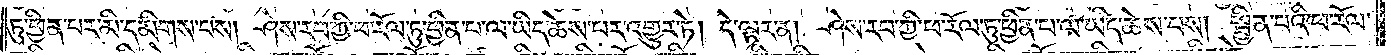ཏུ་ཕྱིན་པར་མི་དམིགས་པས། ཤེས་རབ་ཀྱི་ཕ་རོལ་ཏུ་ཕྱིན་པ་ལ་ཡིད་ཆེས་པར་འགྱུར་ཏེ། དེ་ལྟར་ན། ཤེས་རབ་ཀྱི་ཕ་རོལ་ཏུ་ཕྱིན་པ་ལ་ཡིད་ཆེས་པས། སྦྱིན་པའི་ཕ་རོལ་
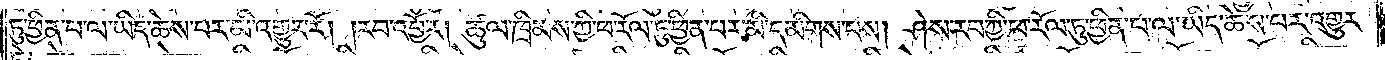ཏུ་ཕྱིན་པ་ལ་ཡིད་ཆེས་པར་མི་འགྱུར་རོ། །རབ་འབྱོར། ཚུལ་ཁྲིམས་ཀྱི་ཕ་རོལ་ཏུ་ཕྱིན་པར་མི་དམིགས་པས། ཤེས་རབ་ཀྱི་ཕ་རོལ་ཏུ་ཕྱིན་པ་ལ་ཡིད་ཆེས་པར་འགྱུར་
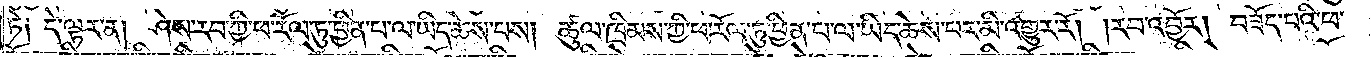ཏེ༑ དེ་ལྟར་ན། ཤེས་རབ་ཀྱི་ཕ་རོལ་ཏུ་ཕྱིན་པ་ལ་ཡིད་ཆེས་པས། ཚུལ་ཁྲིམས་ཀྱི་ཕ་རོལ་ཏུ་ཕྱིན་པ་ལ་ཡིད་ཆེས་པར་མི་འགྱུར་རོ། །རབ་འབྱོར། བཟོད་པའི་ཕ་
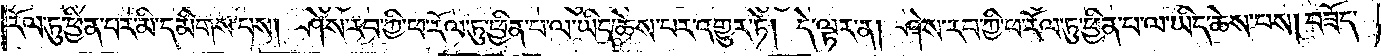རོལ་ཏུ་ཕྱིན་པར་མི་དམིགས་པས། ཤེས་རབ་ཀྱི་ཕ་རོལ་ཏུ་ཕྱིན་པ་ལ་ཡིད་ཆེས་པར་འགྱུར་ཏེ། དེ་ལྟར་ན། ཤེས་རབ་ཀྱི་ཕ་རོལ་ཏུ་ཕྱིན་པ་ལ་ཡིད་ཆེས་པས། བཟོད་
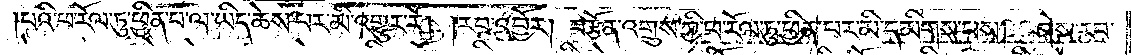པའི་ཕ་རོལ་ཏུ་ཕྱིན་པ་ལ་ཡིད་ཆེས་པར་མི་འགྱུར་རོ། །རབ་འབྱོར། བརྩོན་འགྲུས་ཀྱི་ཕ་རོལ་ཏུ་ཕྱིན་པར་མི་དམིགས་པས། ཤེས་རབ་
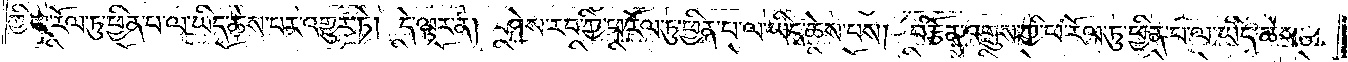ཀྱི་ཕ་རོལ་ཏུ་ཕྱིན་པ་ལ་ཡིད་ཆེས་པར་འགྱུར་ཏེ། དེ་ལྟར་ན། ཤེས་རབ་ཀྱི་ཕ་རོལ་ཏུ་ཕྱིན་པ་ལ་ཡིད་ཆེས་པས། བརྩོན་འགྲུས་ཀྱི་ཕ་རོལ་ཏུ་ཕྱིན་པ་ལ་ཡིད་ཆེས་
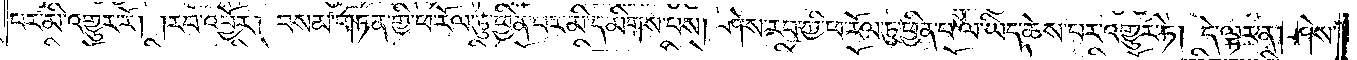པར་མི་འགྱུར་རོ། །རབ་འབྱོར། བསམ་གཏན་གྱི་ཕ་རོལ་ཏུ་ཕྱིན་པར་མི་དམིགས་པས། ཤེས་རབ་ཀྱི་ཕ་རོལ་ཏུ་ཕྱིན་པ་ལ་ཡིད་ཆེས་པར་འགྱུར་ཏེ། དེ་ལྟར་ན། ཤེས་
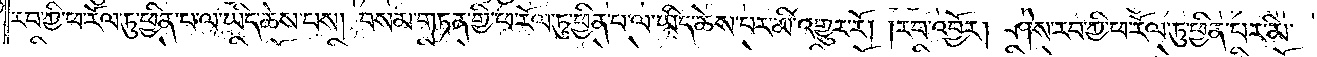རབ་ཀྱི་ཕ་རོལ་ཏུ་ཕྱིན་པ་ལ་ཡིད་ཆེས་པས། བསམ་གཏན་གྱི་ཕ་རོལ་ཏུ་ཕྱིན་པ་ལ་ཡིད་ཆེས་པར་མི་འགྱུར་རོ། །རབ་འབྱོར། ཤེས་རབ་ཀྱི་ཕ་རོལ་ཏུ་ཕྱིན་པར་མི་
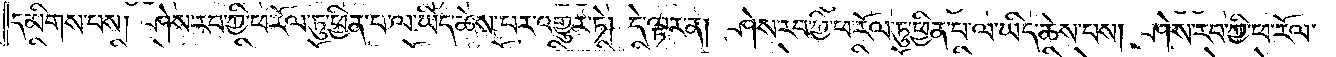དམིགས་པས། ཤེས་རབ་ཀྱི་ཕ་རོལ་ཏུ་ཕྱིན་པ་ལ་ཡིད་ཆེས་པར་འགྱུར་ཏེ། དེ་ལྟར་ན། ཤེས་རབ་ཀྱི་ཕ་རོལ་ཏུ་ཕྱིན་པ་ལ་ཡིད་ཆེས་པས། ཤེས་རབ་ཀྱི་ཕ་རོལ་
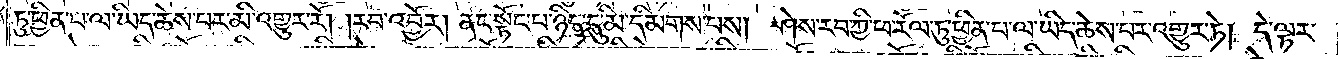ཏུ་ཕྱིན་པ་ལ་ཡིད་ཆེས་པར་མི་འགྱུར་རོ། །རབ་འབྱོར། ནང་སྟོང་པ་ཉིད་དུ་མི་དམིགས་པས། ཤེས་རབ་ཀྱི་ཕ་རོལ་ཏུ་ཕྱིན་པ་ལ་ཡིད་ཆེས་པར་འགྱུར་ཏེ། དེ་ལྟར་
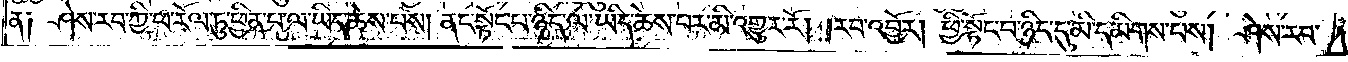ན༑ ཤེས་རབ་ཀྱི་ཕ་རོལ་ཏུ་ཕྱིན་པ་ལ་ཡིད་ཆེས་པས། ནང་སྟོང་པ་ཉིད་ལ་ཡིད་ཆེས་པར་མི་འགྱུར་རོ། །རབ་འབྱོར། ཕྱི་སྟོང་པ་ཉིད་དུ་མི་དམིགས་པས། ཤེས་རབ་
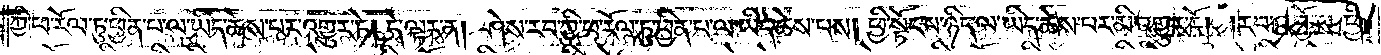ཀྱི་ཕ་རོལ་ཏུ་ཕྱིན་པ་ལ་ཡིད་ཆེས་པར་འགྱུར་ཏེ། དེ་ལྟར་ན། ཤེས་རབ་ཀྱི་ཕ་རོལ་ཏུ་ཕྱིན་པ་ལ་ཡིད་ཆེས་པས། ཕྱི་སྟོང་པ་ཉིད་ལ་ཡིད་ཆེས་པར་མི་འགྱུར་རོ། །རབ་འབྱོར། ཕྱི་
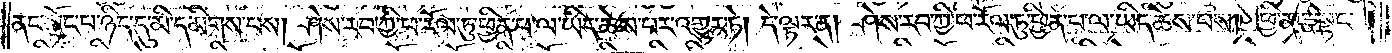ནང་སྟོང་པ་ཉིད་དུ་མི་དམིགས་པས། ཤེས་རབ་ཀྱི་ཕ་རོལ་ཏུ་ཕྱིན་པ་ལ་ཡིད་ཆེས་པར་འགྱུར་ཏེ། དེ་ལྟར་ན། ཤེས་རབ་ཀྱི་ཕ་རོལ་ཏུ་ཕྱིན་པ་ལ་ཡིད་ཆེས་པས། ཕྱི་ནང་སྟོང་
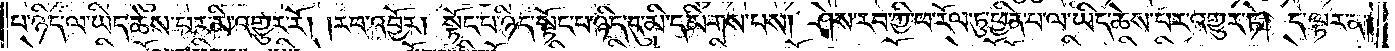པ་ཉིད་ལ་ཡིད་ཆེས་པར་མི་འགྱུར་རོ། །རབ་འབྱོར། སྟོང་པ་ཉིད་སྟོང་པ་ཉིད་དུ་མི་དམིགས་པས། ཤེས་རབ་ཀྱི་ཕ་རོལ་ཏུ་ཕྱིན་པ་ལ་ཡིད་ཆེས་པར་འགྱུར་ཏེ། དེ་ལྟར་ན།
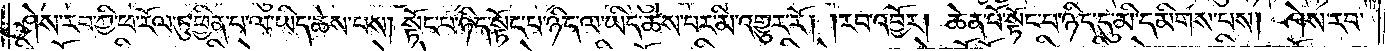ཤེས་རབ་ཀྱི་ཕ་རོལ་ཏུ་ཕྱིན་པ་ལ་ཡིད་ཆེས་པས། སྟོང་པ་ཉིད་སྟོད་པ་ཉིད་ལ་ཡིད་ཆེས་པར་མི་འགྱུར་རོ། །རབ་འབྱོར། ཆེན་པོ་སྟོང་པ་ཉིད་དུ་མི་དམིགས་པས། ཤེས་རབ་
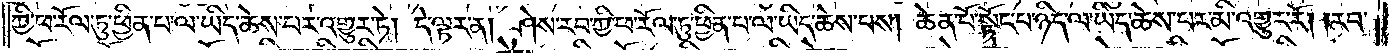ཀྱི་ཕ་རོལ་ཏུ་ཕྱིན་པ་ལ་ཡིད་ཆེས་པར་འགྱུར་ཏེ། དེ་ལྟར་ན། ཤེས་རབ་ཀྱི་ཕ་རོལ་ཏུ་ཕྱིན་པ་ལ་ཡིད་ཆེས་པས། ཆེན་པོ་སྟོང་པ་ཉིད་ལ་ཡིད་ཆེས་པར་མི་འགྱུར་རོ། །རབ་
